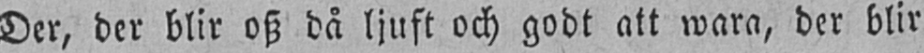Der, der blir osz då ljuft och godt att wara, der blir
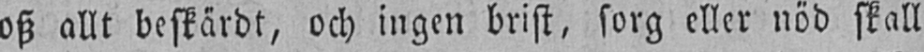osz allt beskärdt, och ingen brist, sorg eller nöd skall
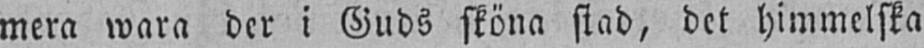mera wara der i Guds sköna stad, det himmelska
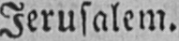Jerusalem.
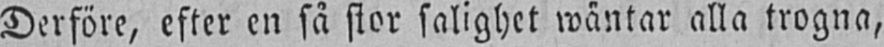Derföre, efter en så stor salighet wäntar alla trogna,
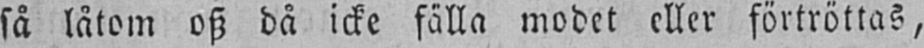så låtom osz då icke fälla modet eller förtröttas,
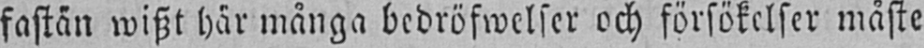fastän wiszt här många bedröfwelser och försökelser måste
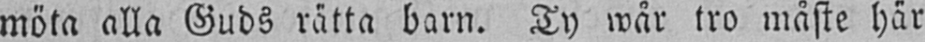möta alla Guds rätta barn. Ty wår tro måste här
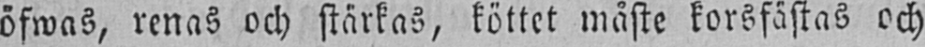öfwas, renas och stärkas, köttet måste korsfästas och
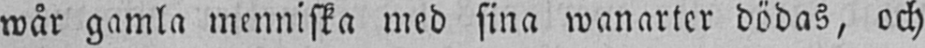wår gamla menniska med sina wanarter dödas, och
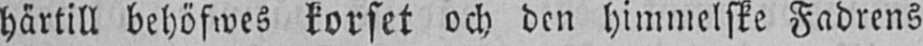härtill behöfwes korset och den himmelske Fadrens
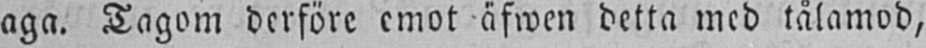aga. Tagom derföre emot äfwen detta med tålamod,
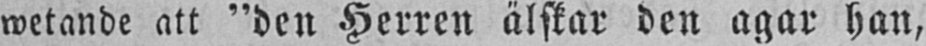wetande att "den Herren älskar den agar han,
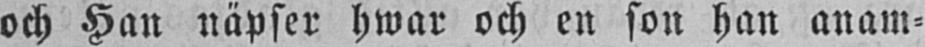och Han näpser hwar och en son han anam-
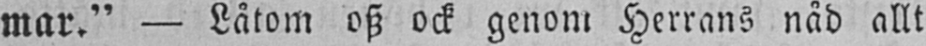mar." — Låtom osz ock genom Herrans nåd allt
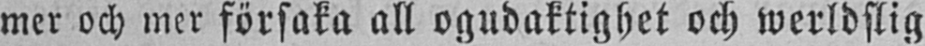mer och mer försaka all ogudaktighet och werldslig
